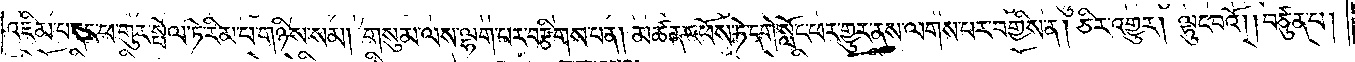འཇིམ་པ་དང་ཕ་གུར་སྤེལ་ཏེ་རིམ་པ་གཉིས་སམ། གསུམ་ལས་ལྷག་པར་བརྩིགས་པ་ན། མཚན་འཕོས་ཏེ་དགེ་སློང་ཕར་གྱུར་ནས་ལགས་པར་བགྱིས་ན། ཅིར་འགྱུར། ལྟུང་བའོ། །བཙུན་པ།
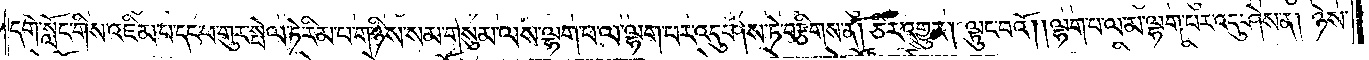དགེ་སློང་གིས་འཇིམ་པ་དང་ཕ་གུར་སྤེལ་ཏེ་རིམ་པ་གཉིས་སམ་གསུམ་ལས་ལྷག་པ་ལ་ལྷག་པར་འདུ་ཤེས་ཏེ་བརྩིགས་ན། ཅིར་འགྱུར། ལྟུང་བའོ། །ལྷག་པ་ལ་མ་ལྷག་པར་འདུ་ཤེས་ན། ཉེས་
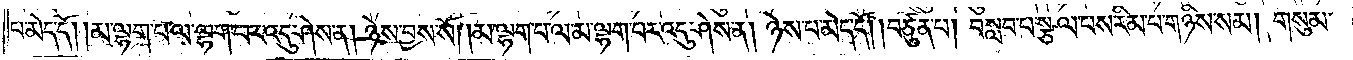པ་མེད་དོ། །མ་ལྷག་པ་ལ་ལྷག་པར་འདུ་ཤེས་ན། ཉེས་བྱས་སོ། །མ་ལྷག་པ་ལ་མ་ལྷག་པར་འདུ་ཤེས་ན། ཉེས་པ་མེད་དོ། །བཙུན་པ། བསླབ་པ་སྩལ་པས་རིམ་པ་གཉིས་སམ། གསུམ་
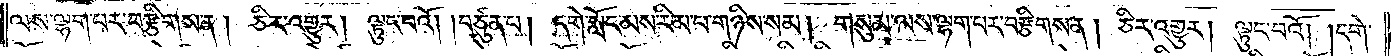ལས་ལྷག་པར་བརྩིགས་ན། ཅིར་འགྱུར། ལྟུང་བའོ། །བཙུན་པ། དགེ་སློང་མས་རིམ་པ་གཉིས་སམ། གསུམ་ལས་ལྷག་པར་བརྩིགས་ན། ཅིར་འགྱུར། ལྟུང་བའོ། །དགེ་
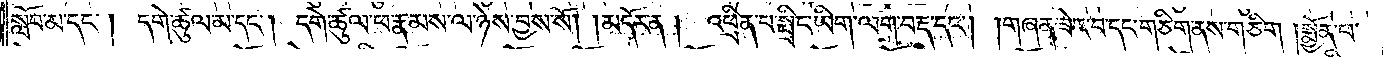སློབ་མ་དང༌། དགེ་ཚུལ་མ་དང༌། དགེ་ཚུལ་ཕ་རྣམས་ལ་ཉེས་བྱས་སོ།    །མདོར་ན། འཕྲིན་པ་སྤྲིང་ཡིག་ལག་བརྡ་དང༌། །གཞན་ཟེར་བ་དང་གཅིག་ནས་གཅིག །སྨྱོན་པ་
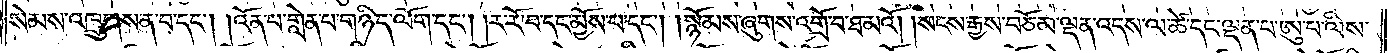སེམས་འཁྲུགས་ན་བ་དང༌། །འོན་པ་གླེན་པ་གཉིད་ལོག་དང༌། །ར་རོ་བ་དང་མྱོས་པ་དང༌། །སྙོམས་ཞུགས་འགྲོ་བ་ཐ་མའོ། །སངས་རྒྱས་བཅོམ་ལྡན་འདས་ལ་ཚེ་དང་ལྡན་པ་ཨུ་པ་ལིས་
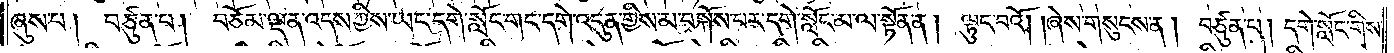ཞུས་པ། བཙུན་པ། བཅོམ་ལྡན་འདས་ཀྱིས་ཡང་དགེ་སློང་གང་དགེ་འདུན་གྱིས་མ་བསྐོས་པར་དགེ་སློང་མ་ལ་སྟོན་ན། ལྟུང་བའོ། །ཞེས་གསུངས་ན། བཙུན་པ། དགེ་སློང་གིས་
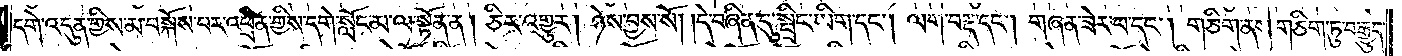དགེ་འདུན་གྱིས་མ་བསྐོས་པར་འཕྲིན་གྱིས་དགེ་སློང་མ་ལ་སྟོན་ན། ཅིར་འགྱུར། ཉེས་བྱས་སོ། །དེ་བཞིན་དུ་སྤྲིང་ཡིག་དང༌། ལག་བརྡ་དང༌། གཞན་ཟེར་བ་དང༌། གཅིག་ནས་གཅིག་ཏུ་བརྒྱུད་
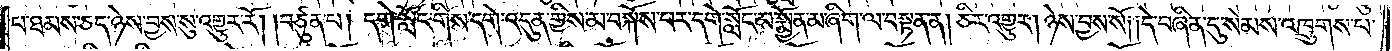པ་ཐམས་ཅད་ཉེས་བྱས་སུ་འགྱུར་རོ། །བཙུན་པ། དགེ་སློང་གིས་དགེ་འདུན་གྱིས་མ་བསྐོས་པར་དགེ་སློང་མ་སྨྱོན་མ་ཞིག་ལ་བསྟན་ན། ཅིར་འགྱུར། ཉེས་བྱས་སོ། །དེ་བཞིན་དུ་སེམས་འཁྲུགས་པ་
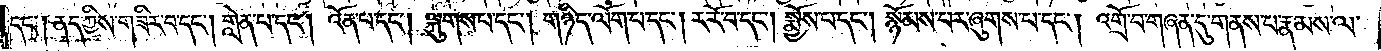དང༌། ནད་ཀྱིས་གཟིར་བ་དང༌། གླེན་པ་དང༌། འོན་པ་དང༌། ལྐུགས་པ་དང༌། གཉིད་ལོག་པ་དང༌། ར་རོ་བ་དང༌། སྨྱོས་པ་དང༌། སྙོམས་པར་ཞུགས་པ་དང༌། འགྲོ་བ་གཞན་དུ་གནས་པ་རྣམས་ལ་
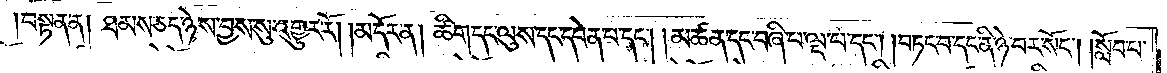།བསྟན་ན། ཐམས་ཅད་ཉེས་བྱས་སུ་འགྱུར་རོ། །མདོར་ན། ཚིག་དང་ལུས་དང་དབེན་པ་དང༌། །མཚན་དང་བཞི་པ་ལྔ་པ་དང༌། །བཏང་བ་དང་ནི་ཉེ་བར་སོང༌། །སློབ་པ་
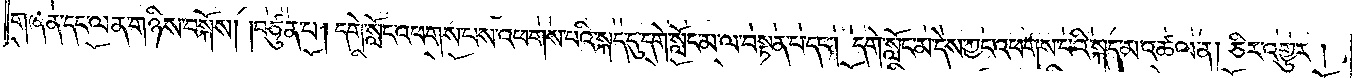གཞན་དང་ལན་གཉིས་བསྐོས། །བཙུན་པ། དགེ་སློང་འཕགས་པས་འཕགས་པའི་སྐད་དུ་དགེ་སློང་མ་ལ་བསྟན་པ་དང༌། དགེ་སློང་མ་དེས་ཀྱང་འཕགས་པའི་སྐད་མ་འཚལ་ན། ཅིར་འགྱུར།
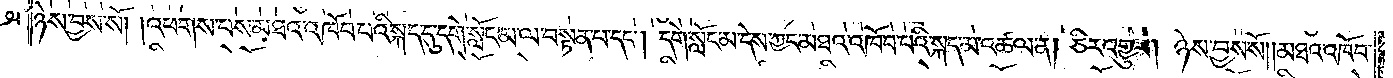ཉེས་བྱས་སོ། །འཕགས་པས་མཐའ་འཁོབ་པའི་སྐད་དུ་དགེ་སློང་མ་ལ་བསྟན་པ་དང༌། དགེ་སློང་མ་དེས་ཀྱང་མཐའ་འཁོབ་པའི་སྐད་མ་འཚལ་ན། ཅིར་འགྱུར། ཉེས་བྱས་སོ། །མཐའ་འཁོབ་
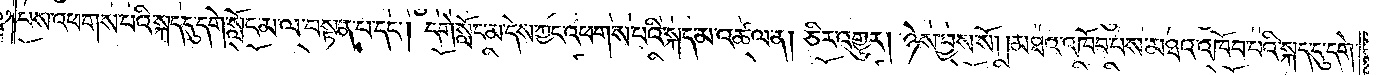པས་འཕགས་པའི་སྐད་དུ་དགེ་སློང་མ་ལ་བསྟན་པ་དང༌། དགེ་སློང་མ་དེས་ཀྱང་འཕགས་པའི་སྐད་མ་འཚལ་ན། ཅིར་འགྱུར། ཉེས་བྱས་སོ། །མཐའ་འཁོབ་པས་མཐའ་འཁོབ་པའི་སྐད་དུ་དགེ་
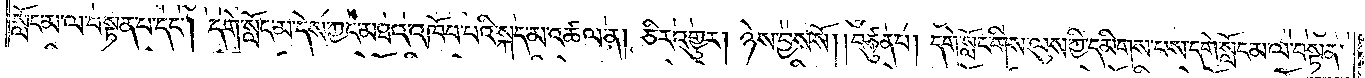སློང་མ་ལ་བསྟན་པ་དང༌། དགེ་སློང་མ་དེས་ཀྱང་མཐའ་འཁོབ་པའི་སྐད་མ་འཚལ་ན། ཅིར་འགྱུར། ཉེས་བྱས་སོ། །བཙུན་པ། དགེ་སློང་གིས་ལུས་ཀྱི་དམིགས་པས་དགེ་སློང་མ་ལ་བསྟན་
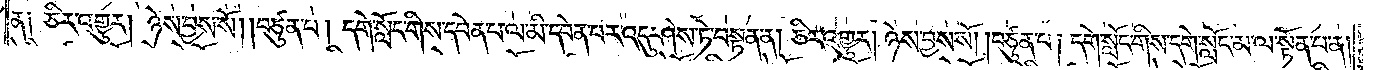ན༑ ཅིར་འགྱུར། ཉེས་བྱས་སོ། །བཙུན་པ། དགེ་སློང་གིས་དབེན་པ་ལ་མི་དབེན་པར་འདུ་ཤེས་ཏེ་བསྟན་ན། ཅིར་འགྱུར། ཉེས་བྱས་སོ། །བཙུན་པ། དགེ་སློང་གིས་དགེ་སློང་མ་ལ་སྟོན་པ་ན།
